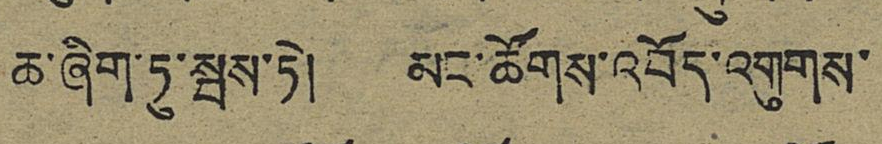ཆ་ཞིག་ཏུ་སྦས་ཏེ། མང་ཚོགས་འབོད་འགུགས་
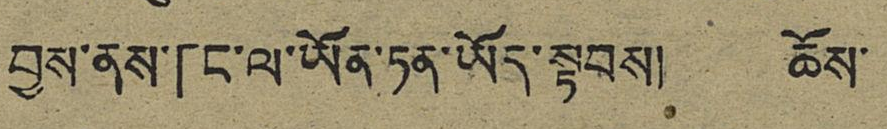བྱས་ནས་「ང་ལ་ཡོན་ཏན་ཡོད་སྟབས། ཆོས་
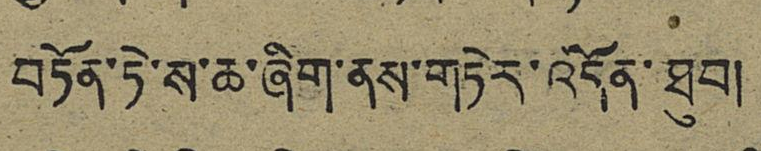བཏོན་ཏེ་ས་ཆ་ཞིག་ནས་གཏེར་འདོན་ཐུབ།
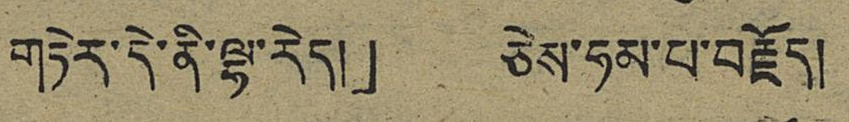གཏེར་དེ་ནི་ལྷ་རེད།」 ཅེས་ཧམ་པ་བརྗོད།
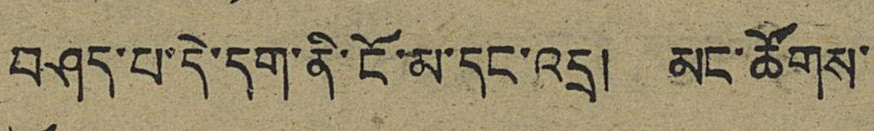བཤད་པ་དེ་དག་ནི་ངོ་མ་དང་འདྲ། མང་ཚོགས་
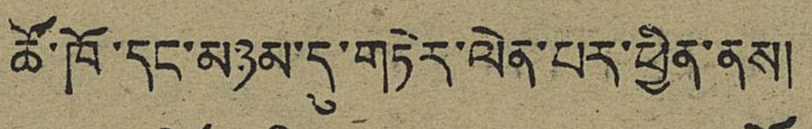ཚོ་ཁོ་དང་མཉམ་དུ་གཏེར་ལེན་པར་ཕྱིན་ནས།
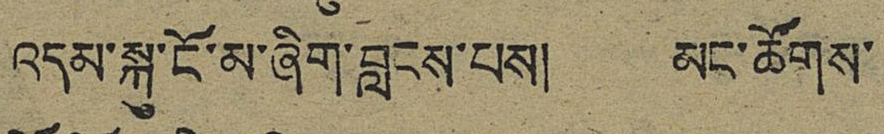འདམ་སྐུ་ངོ་མ་ཞིག་བླངས་པས། མང་ཚོགས་
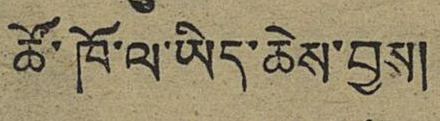ཚོ་ཁོ་ལ་ཡིད་ཆེས་བྱས།
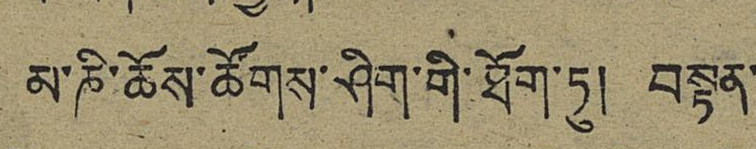མ་ཎི་ཆོས་ཚོགས་ཤིག་གི་ཐོག་ཏུ། བསྟན་
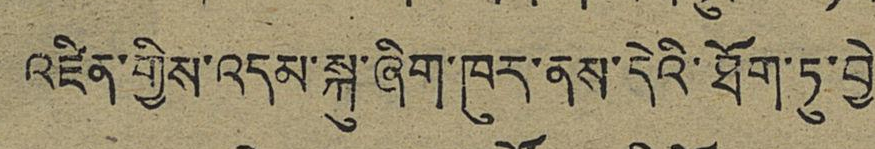འཛིན་གྱིས་འདམ་སྐུ་ཞིག་ཁུར་ནས་དེའི་ཐོག་ཏུ་བྱེ་
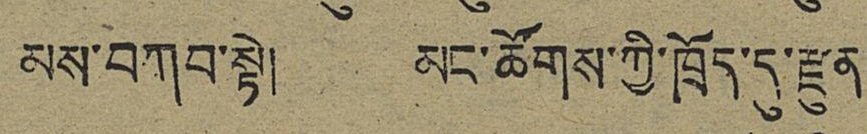མས་བཀབ་སྟེ། མང་ཚོགས་ཀྱི་ཁྲོད་དུ་རྫུན་
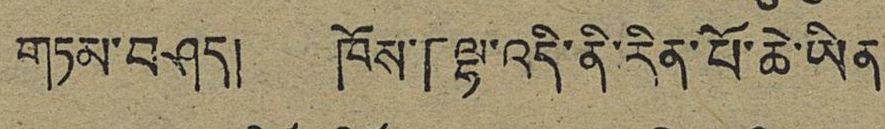གཏམ་བཤད། ཁོས་「ལྷ་འདི་ནི་རིན་པོ་ཆེ་ཡིན
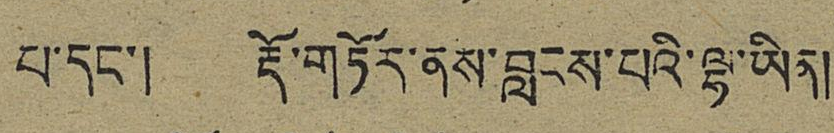པ་དང་། རྡོ་གཏོར་ནས་བླངས་པའི་ལྷ་ཡིན།
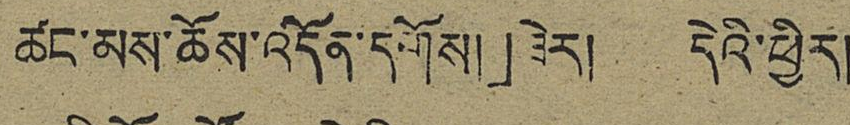ཚང་མས་ཆོས་འདོན་དགོས།」ཟེར། དེའི་ཕྱིར།
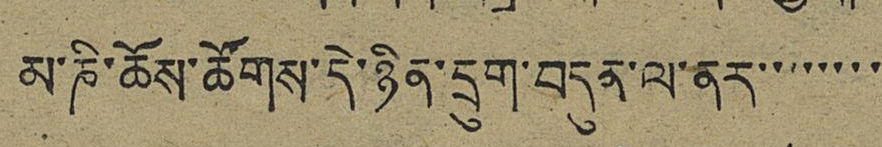མ་ཎི་ཆོས་ཚོགས་དེ་ཉིན་དྲུག་བདུན་ལ་ནར་་་་་་་་
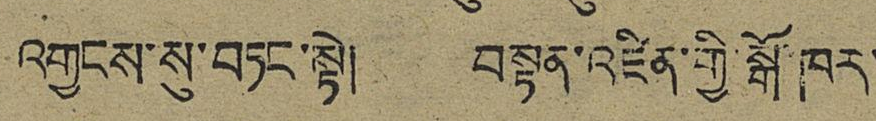འགྱངས་སུ་བཏང་སྟ། བསྟན་འཛིན་གྱི་སྒོ་ཁར་
